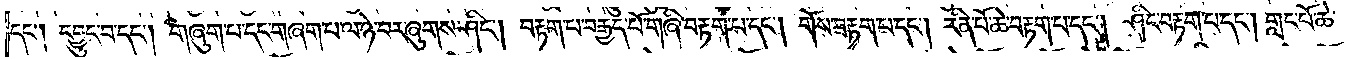དང༌། དབྱུང་བ་དང༌། གཞུག་པ་དང་གཞག་པ་ལ་ཉེ་བར་ཞུགས་ཤིང༌། བརྟག་པ་བརྒྱད་པོ་གཞི་བརྟག་པ་དང༌། གོས་བརྟག་པ་དང༌། རིན་པོ་ཆེ་བརྟག་པ་དང༌། ཤིང་བརྟག་པ་དང༌། གླང་པོ་ཆེ་
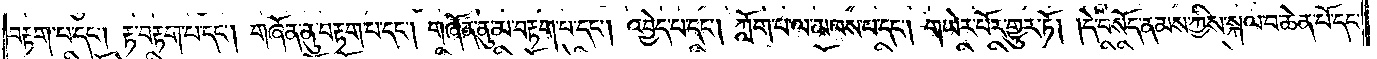བརྟག་པ་དང༌། རྟ་བརྟག་པ་དང༌། གཞོན་ནུ་བརྟག་པ་དང༌། གཞོན་ནུ་མ་བརྟག་པ་དང༌། འབྱེད་པ་དང༌། ཀློག་པ་ལ་མཁས་པ་དང༌། གཡེར་པོར་གྱུར་ཏོ། །དེ་བསོད་ནམས་ཀྱིས་སྐལ་བ་ཆེན་པོ་དང་
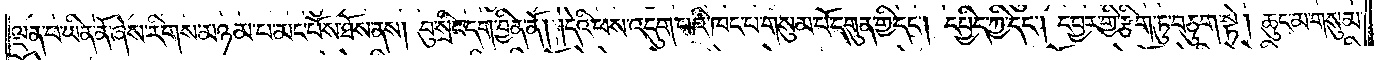ལྡན་པ་ཡིན་ནོ་ཞེས་རིགས་མཉམ་པ་མང་པོས་ཐོས་ནས། བུ་སྲིང་དག་བྱིན་ནོ། །དེའི་ཕས་འདུག་པའི་ཁང་པ་གསུམ་པོ་དགུན་གྱི་དང༌། དཔྱིད་ཀྱི་དང༌། དབྱར་གྱི་རྩིག་ཏུ་བཅུག་སྟེ། ཆུང་མ་གསུམ་
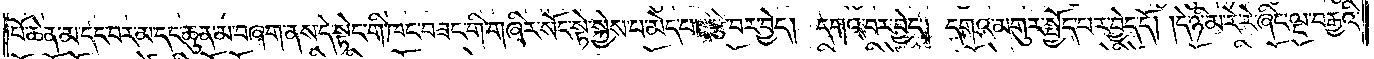པོ་ཆེན་མ་དང་བར་མ་དང་ཆུན་མ་བཞག་ནས་དེ་སྟེང་གི་ཁང་བཟང་གི་གཞིར་སོང་སྟེ་སྐྱེས་པ་མེད་པ་ན་རྩེ་བར་བྱེད། དགའ་བར་བྱེད། དགའ་མགུར་སྤྱོད་པར་བྱེད་དོ། །དེ་ཉི་མ་རེ་རེ་ཞིང་ལྔ་བརྒྱའི་
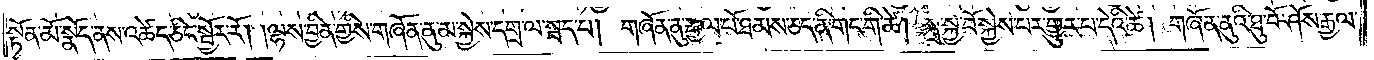སྟོན་མོ་སྣོད་ནས་འཚེད་ཅིང་སྦྱོར་རོ། །ལྷས་བྱིན་གྱིས་གཞོན་ནུ་མ་སྐྱེས་དགྲ་ལ་སྦད་པ། གཞོན་ནུ་རྒྱལ་པོ་ཐམས་ཅད་ནི་གང་གི་ཚེ། སྐྲ་སྐྱ་བོ་སྐྱེས་པར་གྱུར་པ་དེའི་ཚེ། གཞོན་ནུའི་ཐུ་བོ་ཤོས་རྒྱལ་
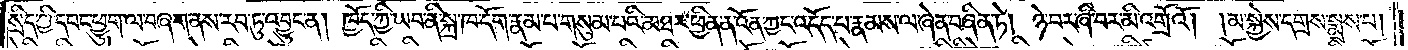སྲིད་ཀྱི་དབང་ཕྱུག་ལ་བཞག་ནས་རབ་ཏུ་འབྱུང་ན། ཁྱོད་ཀྱི་ཡབ་ནི་སྐྲ་ཁ་དོག་རྣམ་པ་གསུམ་པའི་མཐར་ཕྱིན་ན་འོན་ཀྱང་འདོད་པ་རྣམས་ལ་ཞེན་བཞིན་ཏེ། ཉེ་བར་ཞི་བར་མི་འགྲོའོ།<gap>།མ་སྐྱེས་དགྲས་སྨྲས་པ།
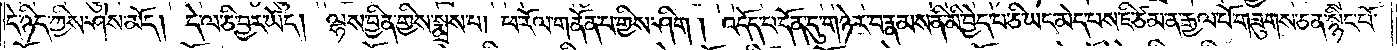དེ་ཉིད་ཀྱིས་ཤེས་མོད། དེ་ལ་ཅི་བྱར་ཡོད། ལྷས་བྱིན་གྱིས་སྨྲས་པ། ཕ་རོལ་གནོན་པ་གྱིས་ཤིག །འདོད་པ་དོན་དུ་གཉེར་བ་རྣམས་ནི་མི་བྱེད་པ་ཅི་ཡང་མེད་པས་ཇི་ཙམ་ན་རྒྱལ་པོ་གཟུགས་ཅན་སྙིང་པོ་
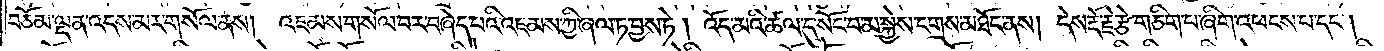བཅོམ་ལྡན་འདས་མར་གསོལ་ནས། འཇམས་གསོལ་བར་བཞེད་པའི་འཇམས་ཀྱི་ཞལ་ཏ་བྱས་ཏེ། འོད་མའི་ཆལ་དུ་སོང་བ་མ་སྐྱེས་དགྲས་མཐོང་ནས། དེས་རྡོ་རྗེ་རྩེ་གཅིག་པ་ཞིག་འཕངས་པ་དང༌།
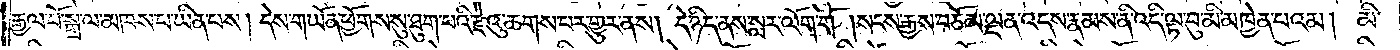རྒྱལ་པོ་སྒྲ་ལ་མཁས་པ་ཡིན་པས། དེས་གཡོན་ཕྱོགས་སུ་ཐུག་པའི་རྫེའུ་ཆགས་པར་གྱུར་ནས། དེ་ཉིད་ནས་སླར་ལོག་གོ །སངས་རྒྱས་བཅོམ་ལྡན་འདས་རྣམས་ནི་འདི་ལྟ་བུ་མི་མཁྱེན་པའམ། མི་
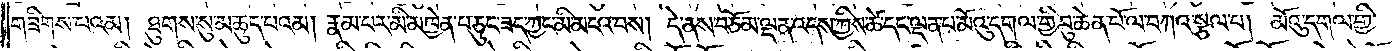གཟིགས་པའམ། ཐུགས་སུ་མ་ཆུད་པའམ། རྣམ་པར་མི་མཁྱེན་པ་ཅུང་ཟད་ཀྱང་མི་མངའ་བས། དེ་ནས་བཅོམ་ལྡན་འདས་ཀྱིས་ཚེ་དང་ལྡན་པ་མོའུ་དགལ་གྱི་བུ་ཆེན་པོ་ལ་བཀའ་སྩལ་པ། མོའུ་དགལ་གྱི་
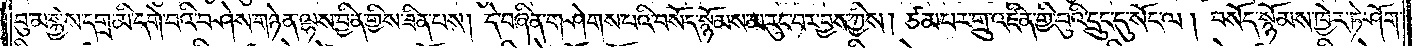བུ་མ་སྐྱེས་དགྲ་མི་དགེ་བའི་བཤེས་གཉེན་ལྷས་བྱིན་གྱིས་ཟིན་པས། དེ་བཞིན་གཤེགས་པའི་བསོད་སྙོམས་མ་རུང་བར་བྱས་ཀྱིས། ཙམ་པར་གྲུ་འཛིན་གྱི་བུའི་དྲུང་དུ་སོང་ལ། བསོད་སྙོམས་ཁྱེར་ཏེ་ཤོག་
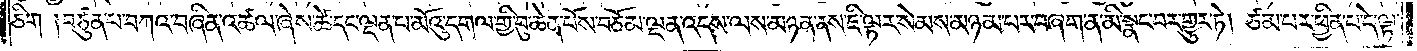ཅིག །བཙུན་པ་བཀའ་བཞིན་འཚལ་ཞེས་ཚེ་དང་ལྡན་པ་མོའུ་དགལ་གྱི་བུ་ཆེན་པོས་བཅོམ་ལྡན་འདས་ལས་མཉན་ནས་ཇི་ལྟར་སེམས་མཉམ་པར་བཞག་ན་མི་སྣང་བར་གྱུར་ཏེ། ཙམ་པར་ཕྱིན་པ་དེ་ལྟ་
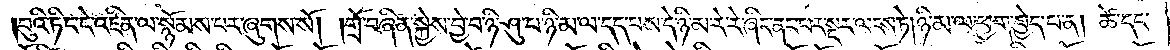བུའི་ཏིང་ངེ་འཛིན་ལ་སྙོམས་པར་ཞུགས་སོ། །གྲོ་བཞིན་སྐྱེས་བྱེ་བ་ཉི་ཤུ་པ་ཉི་མ་ལ་དད་པས་དེ་ཉི་མ་རེ་རེ་ཞིང་ནང་པར་སྔར་ལངས་ཏེ། ཉི་མ་ལ་ཕྱག་བྱེད་པ་ན། ཚེ་དང་
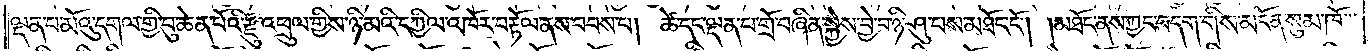ལྡན་པ་མོའུ་དགལ་གྱི་བུ་ཆེན་པོའི་རྫུ་འཕྲུལ་གྱིས་ཉི་མའི་དཀྱིལ་འཁོར་བརྟོལ་ནས་བབས་པ། ཚེ་དང་ལྡན་པ་གྲོ་བཞིན་སྐྱེས་བྱེ་བ་ཉི་ཤུ་པས་མཐོང་ངོ༌། །མཐོང་ནས་ཀྱང་བདག་གིས་མངོན་སུམ་ཁོ་
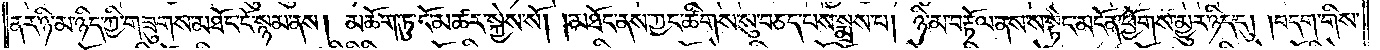ནར་ཉི་མ་ཉིད་ཀྱི་གཟུགས་མཐོང་ངོ་སྙམ་ནས། མཆོག་ཏུ་ངོ་མཚར་སྐྱེས་སོ། །མཐོང་ནས་ཀྱང་ཚིགས་སུ་བཅད་པས་སྨྲས་པ། ཉི་མ་བརྟོལ་ནས་ས་སྟེང་མངོན་ཕྱོགས་མྱུར་ཉིད་དུ། །བདག་གིས་
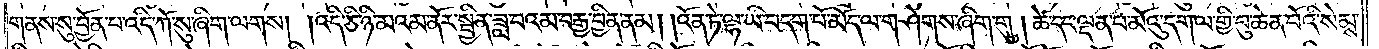གནས་སུ་བྱོན་པ་འདི་ཀོ་སུ་ཞིག་ལགས། །འདི་ཅི་ཉི་མའམ་ནོར་སྦྱིན་ཟླ་བའམ་བརྒྱ་བྱིན་ནམ། །འོན་ཏེ་ལྷ་ཡི་བདག་པོ་མོད་ལ་གཤེགས་ཞིག་གུ། ཚེ་དང་ལྡན་པ་མོའུ་དགལ་གྱི་བུ་ཆེན་པོའི་སེམས་
